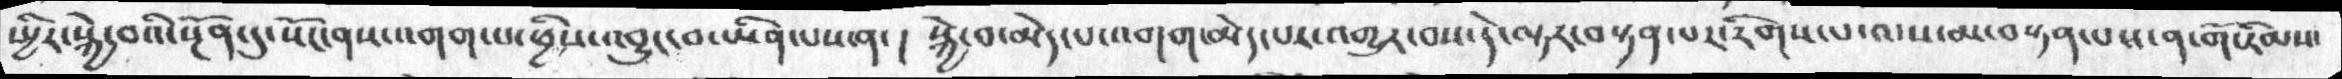སྤྱིར་སྐྱེ་བའི་སྔོན་དུ་སོང་ནས་འགག་པ་ཕྱིས་འབྱུང་བ་ཡིན་པས་ན་།   སྐྱེ་བ་མེད་པ་འགག་མེད་པར་འགྱུར་བས་དེ་ལྟར་བསྟན་པར་རིགས་པ་ལས་མ་བསྟན་པས་ན་གོ་རིམས་
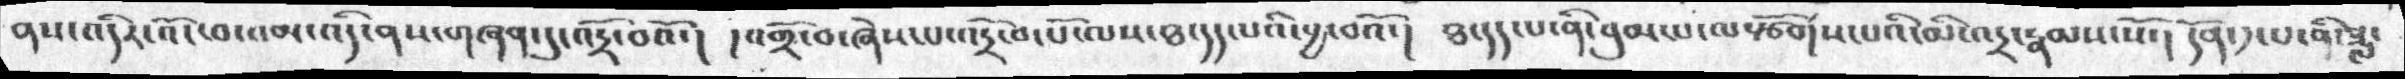ནས་འདིར་འོང་བ་འམ་འདི་ནས་གཞན་དུ་འདྲོ་བའོ་།  །འགྲོ་བ་ཞེས་པ་འདྲ་བོ་པོ་ལས་ཐ་དད་པའི་བྱ་བའོ་།  ཐ་དད་པ་ནི་བུམ་པ་ལ་སྩོགས་པའི་མི་འདྲ་རྣམས་སོ་།  དོན་༡་པ་ནི་ཟླ་
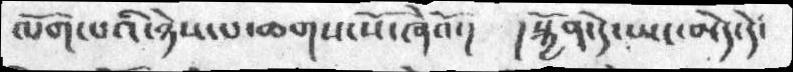ལོག་པའི་ཉེས་པ་ཆགས་སོ་ཞེའོ་།   ། སྐྱོན་དེ་ཡང་མེད་དེ་
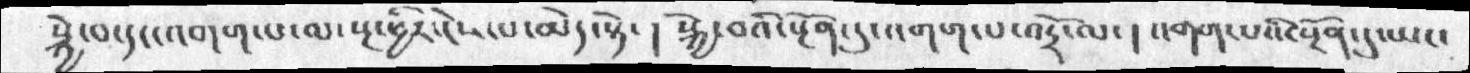སྐྱེ་བ་དང་འགག་པ་ལ་སྔ་ཕྱིར་ངེས་པ་མེད་སྟེ་ ། སྐྱེ་བའི་སྔོན་དུ་འགག་པ་འདྲོ་ལ་ ། འགག་པའི་སྔོན་དུ་ཡང་
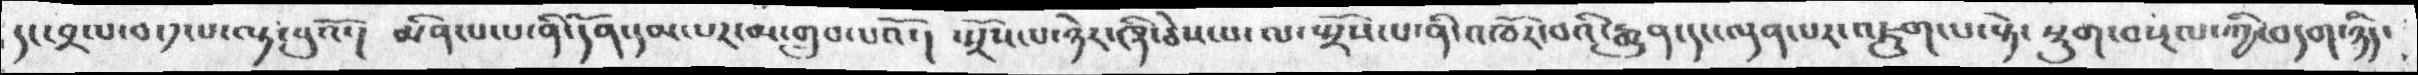དང་བྲལ་བ་༡ས་ལྟ་བུའོ་། མིན་པ་པ་ནི་དོན་དམ་པར་གྲུབ་པའོ། སྤྲོས་པ་ཉེར་ཞི་ཅེས་པ་ལ་སྤྲོས་པ་ནི་འཁོར་བའི་རྒྱུན་དང་ལྡན་པར་འཇུག་པ་སྟེ་སྡུག་བསྔལ་གྱི་བདག་ཉིད་
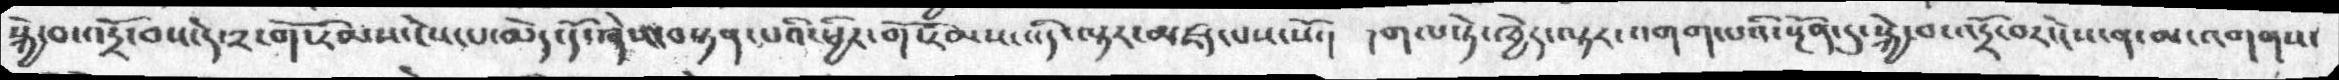སྐྱེ་བ་འདྲོ་བས་དེ་༢ངག་གོ་རིམས་ངེས་པ་མེད་དོ་ཞེས་བསྟན་པའི་ཕྱིར་གོ་རིམས་འདི་ལྟར་མཛད་པས་སོ་། གལ་ཏེ་ཁྱེད་ལྟར་འགག་པའི་སྔོན་དུ་སྐྱེ་བ་འདྲོ་བར་ངེས་ན་མ་འགགས་
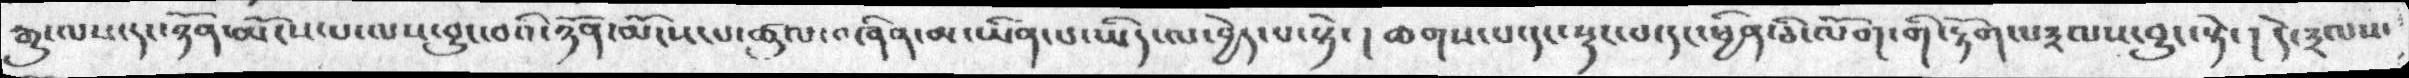སྒྱུ་ལས་རང་ཉོན་མོངས་པ་ལས་བྱུང་བའི་ཉོན་མོངས་པ་ཚུལ་བཞིན་མ་ཡིན་པ་ཡིད་ལ་བྱེད་པ་སྟེ་། ཆགས་པ་དང་སྡང་བ་དང་ཕྱིན་ཅི་ལོག་གི་རྟོག་པ༣མས་བྱུང་སྟེ་། དེ་༣ལས་
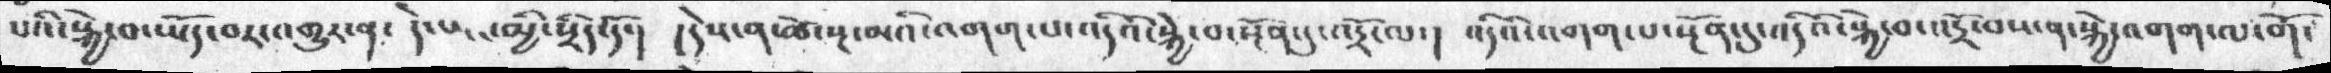པའི་སྐྱེ་བ་ཡོད་བར་འགྱུར་ན་  དེ་ཡང་མྱི་སྲིད་དོ་།  ། དེས་ན་ཚེ་སྔ་མའི་འགག་པ་འདིའི་སྐྱེ་བ་སྔོན་དུ་འདྲོ་ལ་།  འདིའི་འགག་པ་སྔོན་དུ་འདིའི་སྐྱེ་བ་འདྲོ་བས་ན་སྐྱེ་འགག་ལ་གོ་
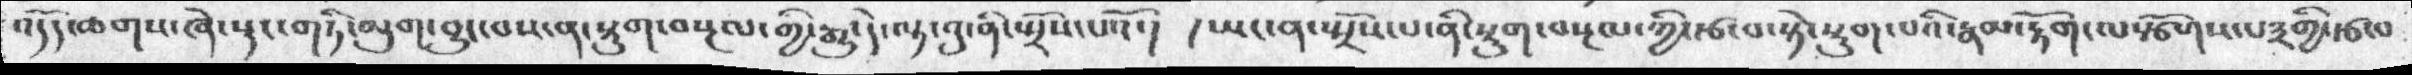འདོད་ཆགས་ཞེ་སྡང་གཏི་མུག་བྱུང་པས་ན་སྡུག་བསྔལ་གྱི་རྒྱུ་དེ་ལྟ་བུ་ནི་སྤྲོས་པའོ་།  ། ཡང་ན་སྤྲོས་པ་ནི་སྡུག་བསྔལ་ཀྱི་རྩ་བ་སྟེ་སྡུག་པའི་རྣམ་རྟོག་ལསྩོགས་པ༣གྱི་རྩལ
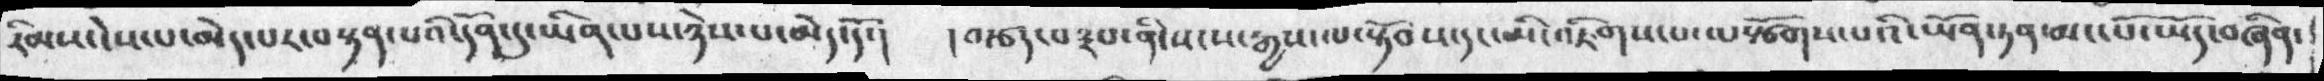རིམས་ངེས་པ་མེད་པར་བསྟན་པའི་དོན་དུ་ཡིན་པས་ཉེས་པ་མེད་དོ་།  ། བརྩད་པ༣པ་ནི་སངས་རྒྱས་ལ་སྟོབས་དང་མི་འཇིགས་པ་ལསྩོགས་པའི་ཡོན་ཏན་མང་པོ་ཡོད་བཞིན་
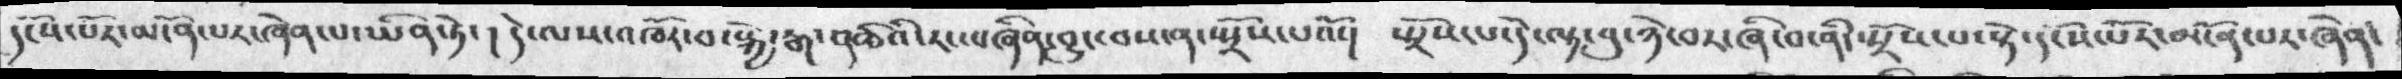དངོས་པོར་མངོན་པར་ཞེན་པ་ཡིན་ཏེ་།  དེ་ལས་འཁོར་བ་སྐྱེ་རྒ་འཆིའི་རང་བཞིན་བྱུང་བས་ན་སྤྲོས་པའོ་།  སྤྲོས་པ་དེ་ལྟ་བུ་ཉེ་བར་ཞི་བ་ནི་སྤྲོས་པ་སྟེ་དངོས་པོར་མངོན་པར་ཞེན་
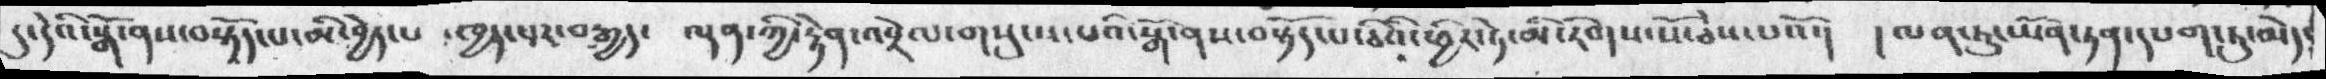དུ་དེའི་སྒོ་ནས་བསྟོད་པ་མི་བྱེད་པ ་ཁྱད་པར་བརྒྱད་  ལྡན་ཀྱི་རྟེན་འབྲེལ་གསུངས་པའི་སྒོ་ནས་བསྟོད་པ་ཅིའི་ཕྱིར་ཏེ་མི་རིགས་སོ་ཅེས་པའོ་།  །ལན་ཏུ་ཡོན་ཏན་དཔག་ཏུ་མེད་
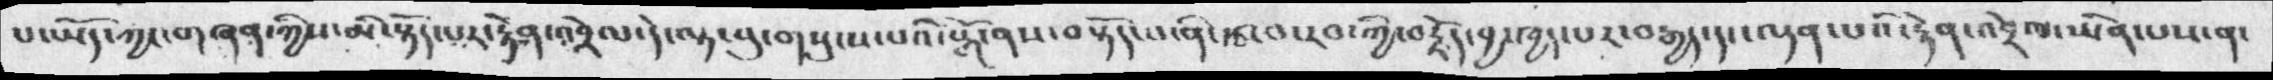པ་ཡོད་ཀྱང་གཞན་ཀྱིས་མི་སྟོད་པར་རྟེན་འབྲེལ་དེ་ལྟ་བུ་གསུངས་པའི་སྒོ་ནས་བསྟོད་པ་ནི་རྩ་བ་རབ་ཀྱི་བརྗོད་བྱ་ཁྱད་པར་བརྒྱད་དང་ལྡན་པའི་རྟེན་འབྲེལ་ཡིན་པས་ན་
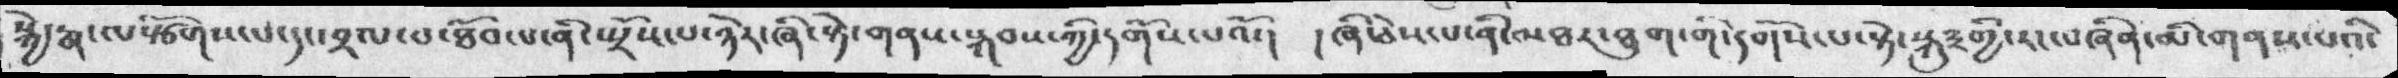སྐྱེ་རྒ་ལ་སྩོགས་པ་དང་བྲལ་བ་ཐོབ་པ་ནི་སྤྲོས་པ་ཉེར་ཞི་སྟེ་གནས་སྐབས་ཀྱི་དགོས་པའོ་།  །ཞི་ཅེས་པ་ནི་མཐར་ཐུག་གི་དགོས་པ་སྟེ་སྐུ༣གྱི་རང་བཞིན་མི་གནས་པའི་
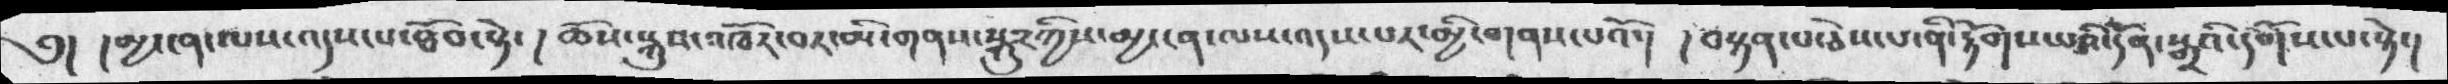༄༅། །མྱ་ངན་ལས་འདས་པ་ཐོབ་སྟེ་། ཆོས་སྐུས་འཁོར་བར་མི་གནས་སྐུར་ཀྱིས་མྱ་ངན་ལས་འདས་པར་མྱི་གནས་པའོ་། །བསྟན་པ་ཅེས་པ་ནི་རྟོགས་པའི་དོན་སྒྲའི་དགོས་པ་སྟེ་།
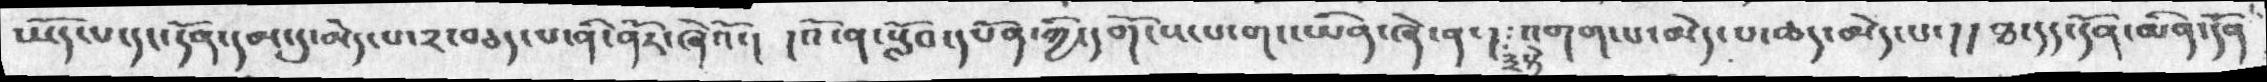ཡོད་པ་དང་དོན་དམ་དུ་མེད་པ་༢་བཅད་པ་ནི་ནོར་ཞེའོ་།   །  འོ་ན་སློབ་དཔོན་ཀྱི་དགོངས་པ་གང་ཡིན་ཞེ་ན་ ། ༣སྟེ་འགག་པ་མེད་པ་ཆད་མེད་པ་།།  ཐ་དད་དོན་མིན་དོན་
